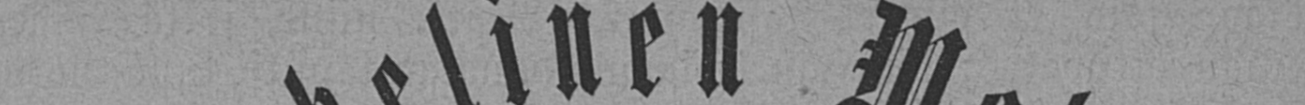Ewankelinen Walkeus.
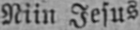Niin Jesus
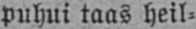puhui taas heil-
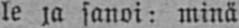le ja sanoi: minä
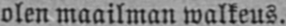olen maailman walkeus.
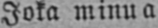Joka minua
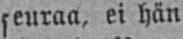seuraa, ei hän
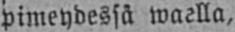pimeydessä waella,
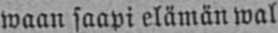waan saapi elämän wal-
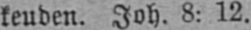keuden. Joh. 8: 12.
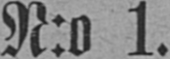N:o 1.
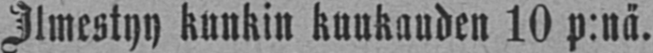Ilmestyy kunkin kuukauden 10 p:nä.
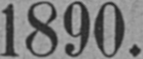1890.
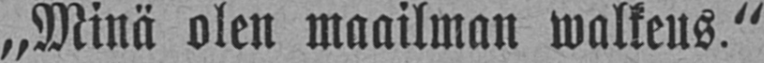„Minä olen maailman walkeus."
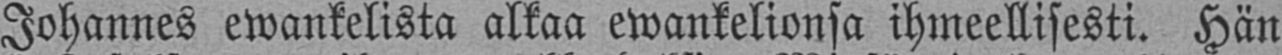Johannes ewankelista alkaa ewankelionsa ihmeellisesti. Hän
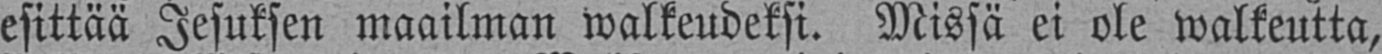esittää Jesuksen maailman walkeudeksi. Missä ei ole walkeutta,
